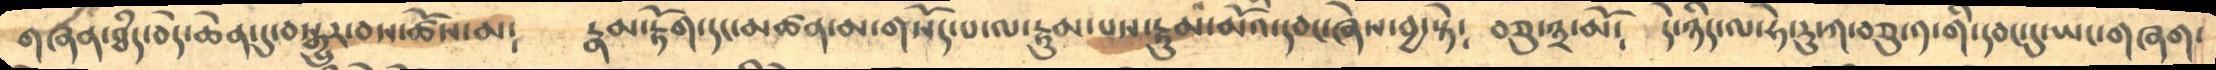གཞན་ཐཾད་བདེ་ཆེན་དུ་བསྒྱུར་བས་ཚོས་མ༴   རྣམ་རྟོག་དང་མཚན་མ་གསོད་པ་ལ་རྟུམ་པས་རྟུམ་མོའི་དབང་ཞེས་བྱ་སྟེ༴   བཅུ་༣་མོ༴  དེ་ཉིད་ལ་ཧེ་རུ་ཀ་བཅུ་༡་གི་དབང་དུ་ཡང་གཞག་
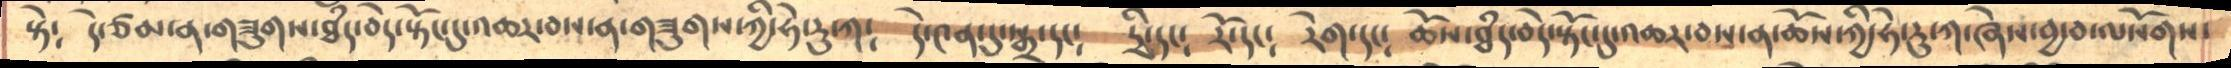སྟེ༴     དེ་ཙམ་ན་གཟུགས་ཐཾད་བདེ་སྟོང་དུ་འཆར་བས་ན་གཟུགས་ཀྱི་ཧེ་རུ་ཀ༴    དེ་༤ན་དུ་སྒྲ་དང༴   དྲི་དང༴   རོ་དང༴   རེག་དང༴   ཆོས་ཐཾད་བདེ་སྟོང་དུ་འཆར་བས་ན་ཆོས་ཀྱི་ཧེ་རུ་ཀ་ཞེས་བྱ་བ་ལསོགས་
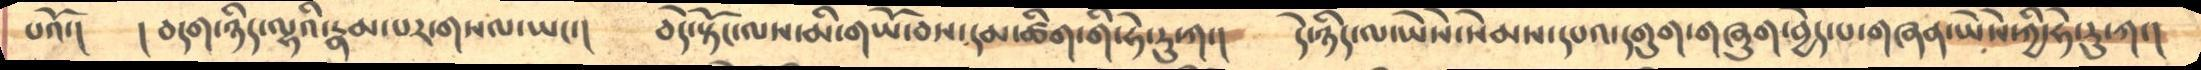པའོ་།    ། བདག་ཉིད་ལྷའི་རྣམ་པར་གསལ་ཡང་།   བདེ་སྟོང་ལས་མི་གཡོ་བས་དམ་ཚིག་གི་ཧེ་རུ་ཀ་།   དེ་ཉིད་ལ་ཡེེས་སེམས་དཔའ་དགུག་གཞུག་བྱེད་པ་གཞན་ཡེེས་ཀྱི་ཧེ་རུ་ཀ་།
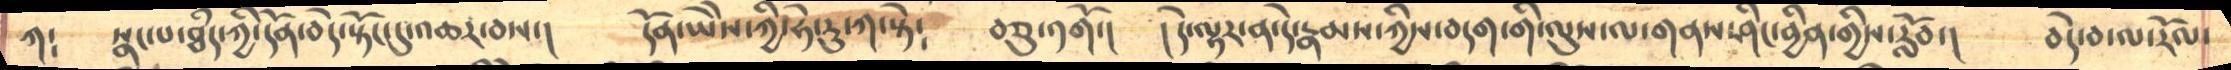ཀ༴   སྣང་པ་ཐཾད་ཀྱི་དོན་བདེ་སྟོང་དུ་འཆར་བས༴    དོན་ཡེེས་ཀྱི་ཧེ་རུ་ཀ་སྟེ༴    བཅུ་༡གོ་།    །དེ་ལྟར་ན་དེ་རྣམ་ཀྱིས་བདག་གི་ལུས་ལ་གནས་ཤིང་བྱིན་གྱིས་རློབ་།    བདེ་བ་ལ་རོལ་
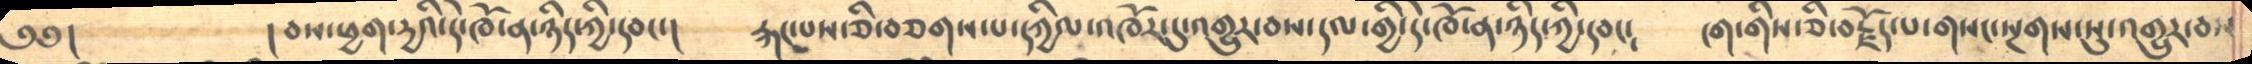༄༅།         །བས་ཕྱག་དྱའི་དེ་ཁོ་ན་ཉིད་ཀྱི་དབང་།    རྐང་པས་ཅི་བཅགས་པ་དཀྱིལ་འཁོར་དུ་འགྱུར་བས་དལ་གྱི་དེ་ཁོ་ན་ཉིད་ཀྱི་དབང༴   ངག་གིས་ཅི་བརྗོད་པ་གསང་སྔགས་སུ་འགྱུར་བས
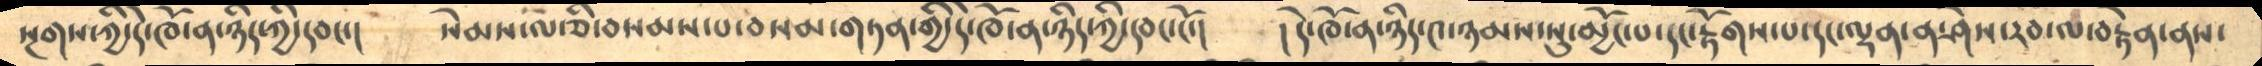སྔགས་ཀྱི་དེ་ཁོ་ན་ཉིད་ཀྱི་དབང་།    སེམས་ལ་ཅི་བསམས་པ་བསམ་གཏན་གྱི་དེ་ཁོ་ན་ཉིད་ཀྱི་དབང་ངོ་།    ། དེ་ཁོ་ན་ཉིད་༤་ཉམས་སུ་མྱོང་པ་དང་རྟོགས་པ་དང་ལྷན་ན་ཤེས་རབ་ལ་བརྟེན་ནས་
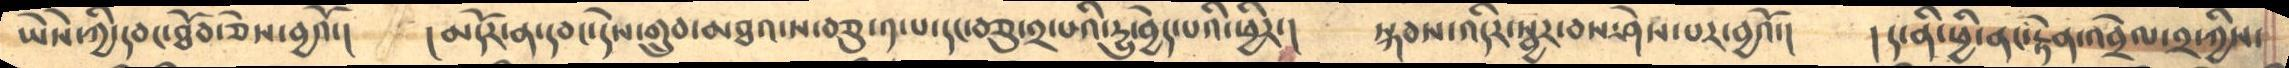ཡཻས་ཀྱི་དབང་ཐོབ་ཅེས་བྱའོ་།     །མདོར་ན་དབང་དེས་གྲུབ་མཐའ་ས་བཅུ་༡་པ་དང་བཅུ་༢་པའི་དྱུ་བྱེད་པའི་ཕྱིར་།    སྐབས་འདིར་སྦྱར་བས་ཤེས་པར་བྱའོ་།    ། ད་ནི་ཕྱི་ནང་རྟེན་འབྲེལ་༢་ཀྱིས་
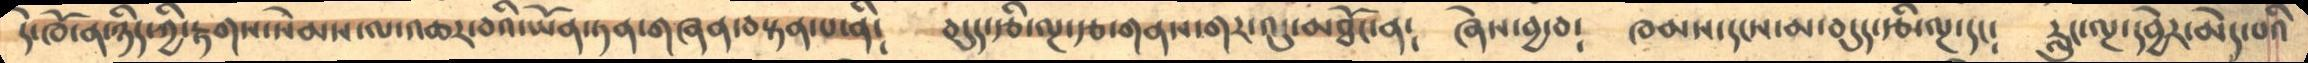དེ་ཁོ་ན་ཉིད་ཀྱི་རྟགས་སེམས་ལ་འཆར་བའི་ཡོན་ཏན་གཞན་བསྟན་པ་ནི༴    བདུད་རྩི་ལྔ་རྩ་གནས་གར་འདུ་མཐོང་ན༴   ཞེས་བྱ་བ༴  ཁམས་དངས་མ་བདུད་རྩི་ལྔ་དང༴   རླུང་ལྔ་དབྱེར་མེད་པའི
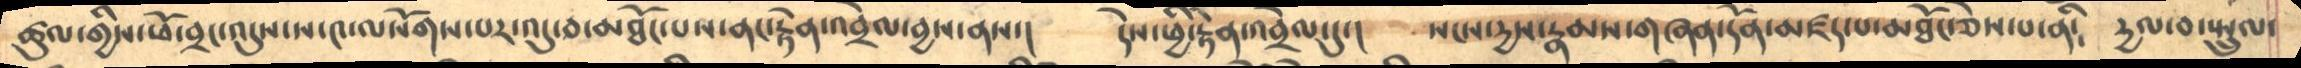ཚུལ་གྱིས་ཕོ་བྲང་འདུས་པ་༤་ལསོགས་པར་འདུ་བ་མཐོང་པས་ནང་རྟེན་འབྲེལ་བྱས་ནས་།   དེས་ཕྱི་རྟེན་འབྲེལ་དུ་།    སངས་དྱས་རྣམས་གཞན་དོན་མཛད་པ་མཐོང་ཅེས་པ་ནི༴  དྱལ་བ་སྤྲུལ་
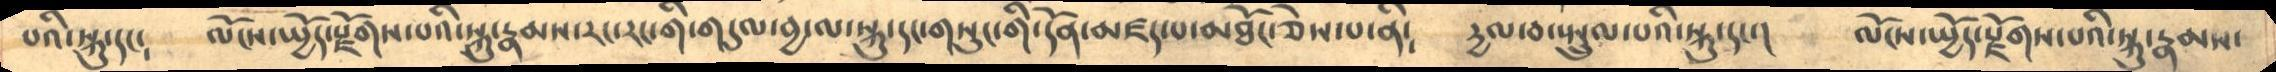པའི་སྐུ་དང༴    ལོངས་སྤྱོད་རྫོགས་པའི་སྐུ་རྣམས་རང་རང་གི་གདུལ་བྱ་ལ་སྐུ་དང་གསུང་གི་དོན་མཛད་པ་མཐོང་ཅེས་པ་ནི༴    དྱལ་བ་སྤྲུལ་པའི་སྐུ་དང་།    ལོངས་སྤྱོད་རྫོགས་པའི་སྐུ་རྣམས་
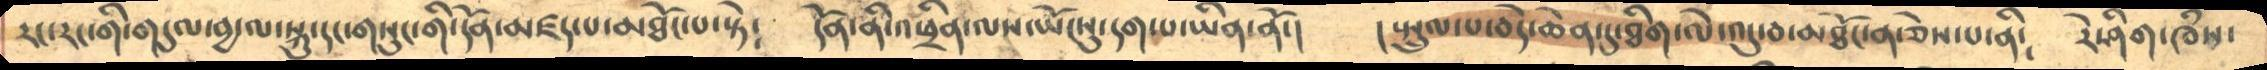རང་རང་གི་གདུལ་བྱ་ལ་སྐུ་དང་གསུང་གི་དོན་མཛད་པ་མཐོང་པ་སྟེ༴   དོན་ནི་འཕྲིན་ལས་ཡོངསུ་དག་པ་ཡིན་ནོ་།   ། སྤྲུལ་པ་བདེ་ཆེན་དུ་ཐིག་ལེ་འདུ་བ་མཐོང་ན་ཅེས་པ་ནི༴   རེ་ཤིག་ཁཾས་
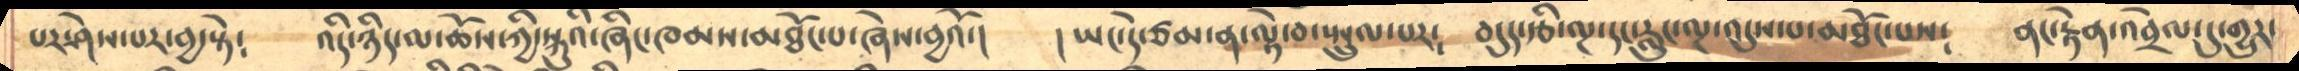པར་ཤེས་པར་བྱ་སྟེ༴    འདི་ཉིད་ལ་ཆོས་ཀྱི་སྐུའི་ཞིང་ཁམས་མཐོང་པ་ཞེས་བྱའོ་།    །ཡང་དེ་ཙམ་ན་ལྟེ་བ་སྤྲུལ་པར༴  བདུད་རྩི་ལྔ་དང་རླུང་ལྔ་འདུས་པ་མཐོང་པཔ༴   ནང་རྟེན་འབྲེལ་དུ་གྱུར་
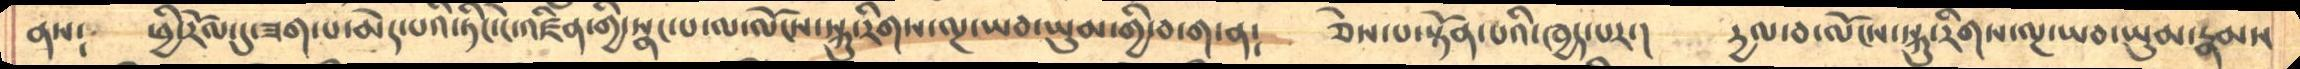ནས༴     ཕྱི་རོལ་དུ་ཟག་པ་མེད་པའི་ཏིང་ངེ་འཛིན་གྱི་སྣང་པ་ལ་ལོངས་སྐུ་རིགས་ལྔ་ཡབ་ཡུམ་གྱི་བ་ག་ན༴   ཅེས་པ་སྟོན་པའི་ཁྱད་པར་།   དྱལ་བ་ལོངས་སྐུ་རིགས་ལྔ་ཡབ་ཡུམ་རྣམས
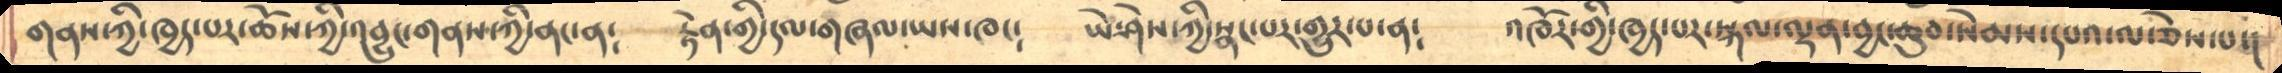གནས་ཀྱི་ཁྱད་པར་ཆོས་ཀྱི་འབྱུང་གནས་ཀྱི་ནང་ན༴   རྟེན་གྱི་དལ་ཞལ་ཡས་ཁང་༴    ཡེ་ཤེས་ཀྱི་སྣང་པར་གྱུར་པ་ན༴    འཁོར་གྱི་ཁྱད་པར་སྐལ་ལྡན་བྱང་ཆུབ་སེམས་དཔའ་ལ་ཅེས་པ་།
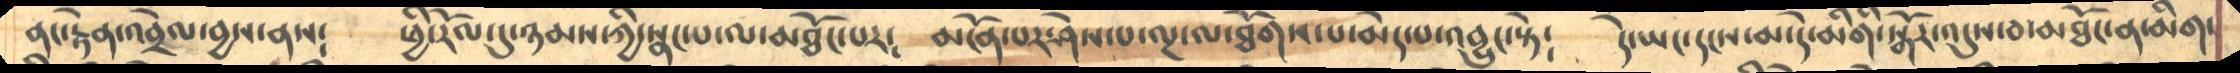ནང་རྟེན་འབྲེལ་བྱས་ནས༴    ཕྱི་རོལ་དུ་ཉམས་ཀྱི་སྣང་པ་ལ་མཐོང་པར༴   མངོན་པར་ཤེས་པ་ལྔ་ལ་ཐོགས་པ་མེད་པ་འབྱུང་སྟེ༴   དེ་ཡང་དངས་མ་དེ་མིགི་སྒོར་འདུས་བ་མཐོང་ན་མིག་
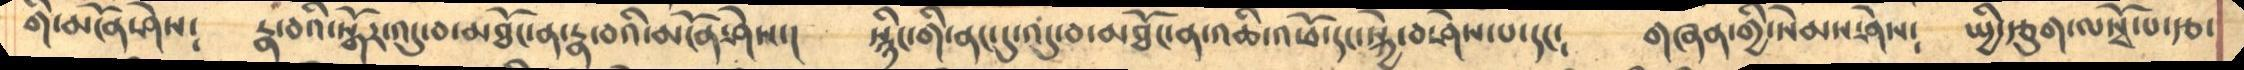གི་མངོན་ཤེས༴    རྣ་བའི་སྒོར་འདུ་བ་མཐོང་ན་རྣ་བའི་མངོན་ཤེས་།     སྙིང་གི་ནང་དུ་འདུ་བ་མཐོང་ན་འཆི་འཕོ་དང་སྐྱེ་བ་ཤེས་པ་དང༴   གཞན་གྱི་སེམས་ཤེས༴  སྤྱི་རྩུག་ལསྭོ་པ་རྩ་
